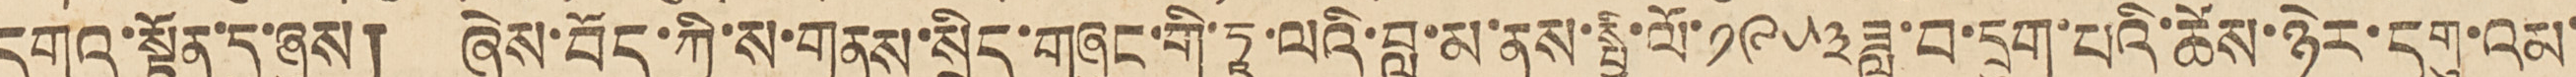དགའ་སྟོན་དུ་ཞུས། ཞེས་བོད་ཀྱི་ས་གནས་སྲིད་གཞུང་གི་ཏཱ་ལའི་བླ་མ་ནས་སྤྱི་ལོ་༡༩༥༣ཟླ་བ་དྲུག་པའི་ཚེས་ཉེར་དགུ་འམ་
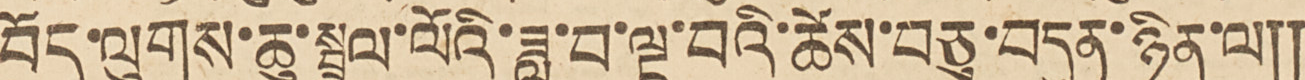བོད་ལུགས་ཆུ་སྦྲུལ་ལོའི་ཟླ་བ་ལྔ་བའི་ཚེས་བཅུ་བདུན་ཉིན་ལ༎
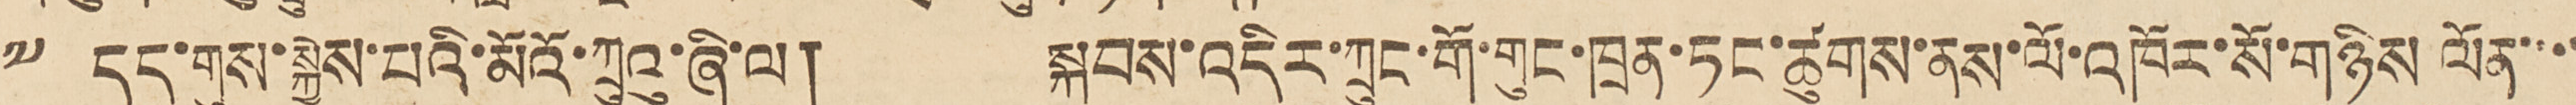༸ དད་གུས་སྐྱེས་པའི་མོའོ་ཀྲུའུ་ཞི་ལ། སྐབས་འདིར་ཀྲུང་གོ་གུང་ཁྲན་ཏང་ཚུགས་ནས་ལོ་འཁོར་སོ་གཉིས ལོན་་་་
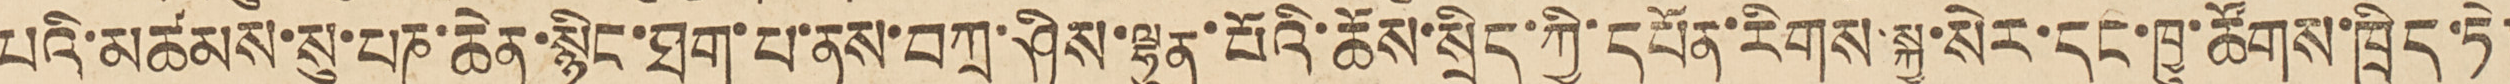པའི་མཚམས་སུ་པཎ་ཆེན་སྙིང་ཐག་པ་ནས་བཀྲ་ཤིས་ལྷུན་པོའི་ཆོས་སྲིད་ཀྱི་དཔོན་རིགས་སྐྱ་སེར་དང་ཁྱུ་ཚོགས་ཁྲིད་ཏེ།
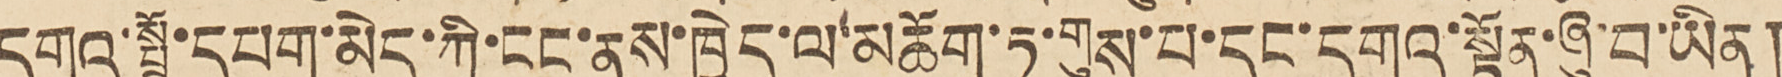དགའ་སྤྲོ་དཔག་མེད་ཀྱི་ངང་ནས་ཁྱེད་ལ་མཆོག་ཏུ་གུས་པ་དང་དགའ་སྟོན་ཞུ་བ་ཡིན།
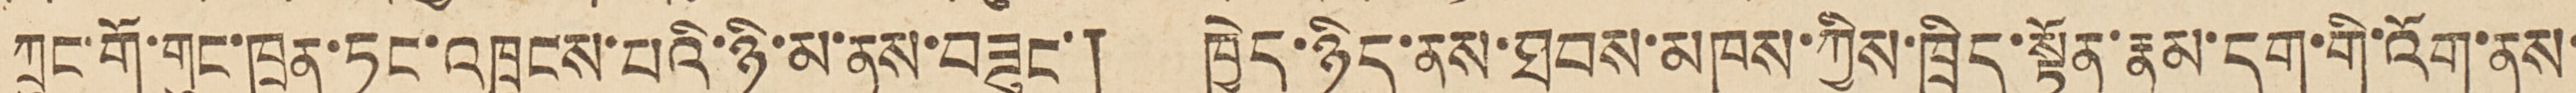ཀྲུང་གོ་གུང་ཁྲན་ཏང་འཁྲུངས་པའི་ཉི་མ་ནས་བཟུང་། ཁྱེད་ཉིད་ནས་ཐབས་མཁས་ཀྱིས་ཁྲིད་སྟོན་རྣམ་དག་གི་འོག་ནས་
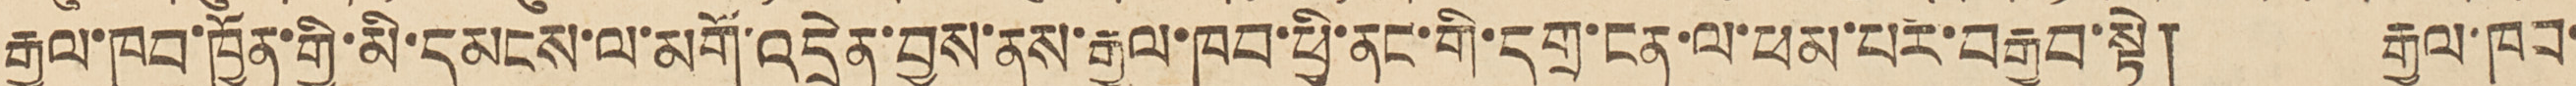རྒྱལ་ཁབ་ཁྱོན་གྱི་མི་དམངས་ལ་མགོ་འདྲེན་བྱས་ནས་རྒྱལ་ཁབ་ཕྱི་ནང་གི་དགྲ་ངན་ལ་ཕམ་པར་བརྒྱབ་སྟེ། རྒྱལ་ཁབ་
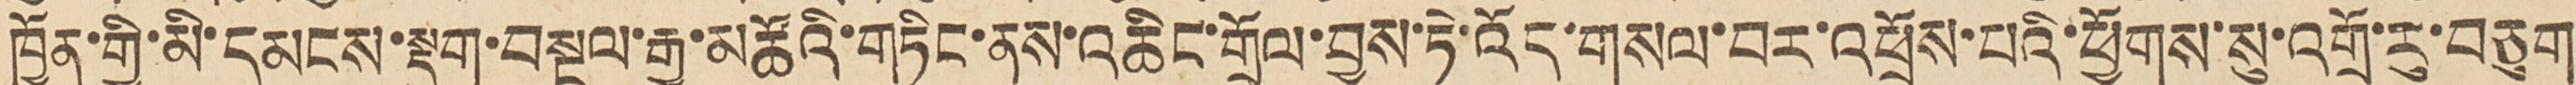ཁྱོན་གྱི་མི་དམངས་སྡུག་བསྔལ་རྒྱ་མཚོའི་གཏིང་ནས་འཆིང་གྲོལ་བྱས་ཏེ་འོད་གསལ་བར་འཕྲོས་པའི་ཕྱོགས་སུ་འགྲོ་རུ་བཅུག
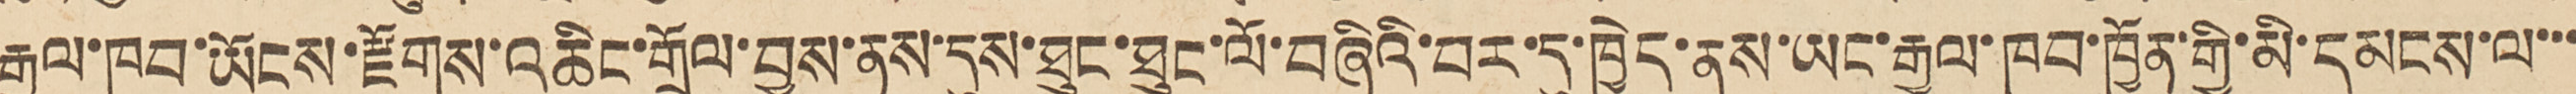རྒྱལ་ཁབ་ཡོངས་རྫོགས་འཆིང་གྲོལ་བྱས་ནས་དུས་ཐུང་ཐུང་ལོ་བཞིའི་བར་དུ་ཁྱེད་ནས་ཡང་རྒྱལ་ཁབ་ཁྱོན་གྱི་མི་དམངས་ལ་་་
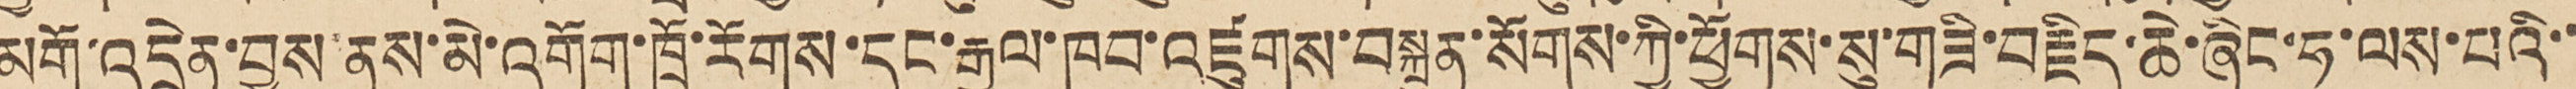མགོ་འདྲེན་བྱས་ནས་མེ་འགོག་ཁྲོ་རོགས་དང་རྒྱལ་ཁབ་འཛུགས་བསྐྲུན་སོགས་ཀྱི་ཕྱོགས་སུ་གཟི་བརྗིད་ཆེ་ཞིང་ཧ་ལས་པའི་་
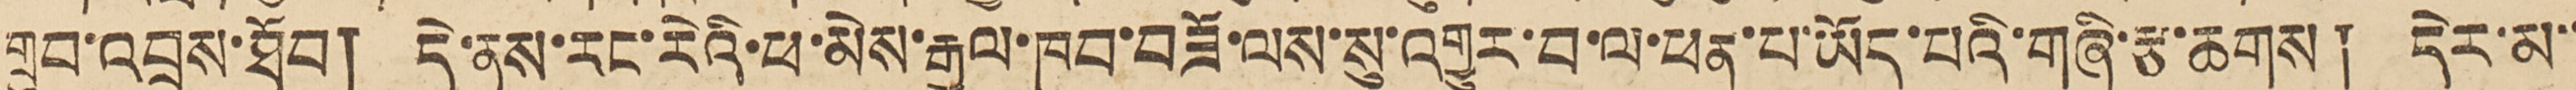གྲུབ་འབྲས་ཐོབ། དེ་ནས་རང་རེའི་ཕ་མེས་རྒྱལ་ཁབ་བཟོ་ལས་སུ་འགྱུར་བ་ལ་ཕན་པ་ཡོད་པའི་གཞི་རྩ་ཆགས། དེར་མ་་
